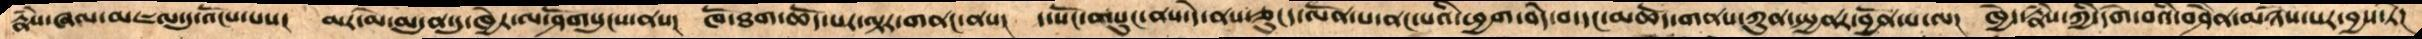རྣཾས་ཞལ་མཇལ་དུ་འོངས་པས།   མར་མེ་མདུན་དུ་ཁྱེར་ལ་ཤོགསུངས་ནས།   ཁོ་ཐག་ཆོད་པར་ལྟར་གནང་ནས།  ད་སོང་གསུངས་ནས་དེ་ནས་ཅུངཟད་ལོན་པ་ནང་པའི་ཕྱག་བདེ་བ་དང་མཆོད་གནས་ཀུན་སྤྱནར་བྱོན་པ་ལ།   ཁྱེད་རྣཾས་ཀྱི་དགེ་བའི་བཤཻན་མཉེས་པར་བྱས་ཏེ།
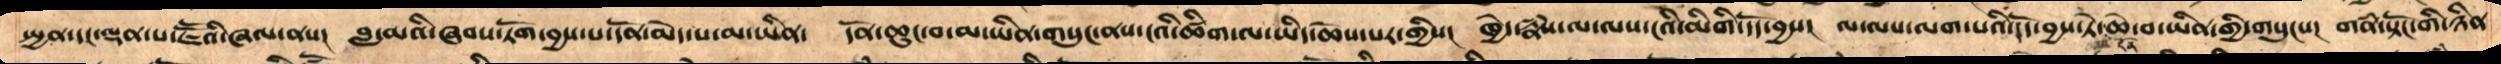སྤྱན་དང་ལྡན་པ་ཇཽའི་ཞལ་ནས། བླ་མའི་ཞབས་ཏོག་བྱས་པ་དོན་མེད་པ་མ་ཡིན། དོན་ཆུང་བ་མ་ཡིན་གསུང་ནས་ངའི་ཚིག་ལ་ཡིད་ཆེས་པར་གྱིས། ཁྱེད་རྣཾས་ལ་ལས་ངའི་མིགི་དོད་བྱས། ལ་ལས་ལག་པའི་དོད་བྱས་ཏེ་ཆེ་བ་ཡིན་གྱི་གསུངས། གནཾ་སྟོང་གི་ཉིན་
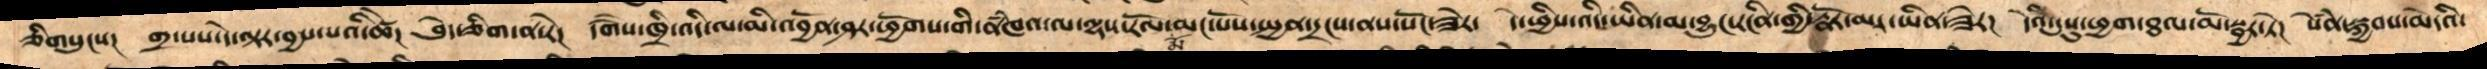ཅིགསུངས།   གྲ་པས་དེ་ལྟར་བྱས་པའི་ཚེ།   བེུད་ཅིག་ན་རེ།   དགཻས་ཁྲི་འདི་ལ་མི་འབྱོན་ཤར་ཕྱོགས་གི་ནཾཁའ་ལ་ལྷས་རོལ་མོ་མང་པོས་སྤྱན་དྲངས་ནས་སོང་ཟེར་  དེ་ཕྱིས་འདི་ཡིན་མ་བྱུང་རངིན་གྱི་རྣོར་མ་ཡིན་ཟེར།  དེའི་དུསུ་ཕྱག་ཐལ་མོ་སྦྱར་ཏེ།  སེཾན་སྐྱབས་མེདའི་
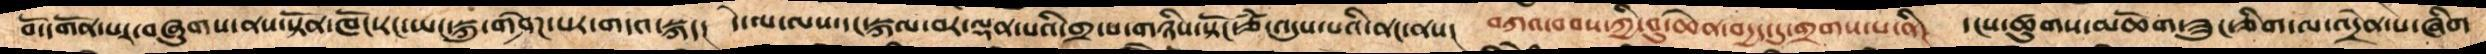བོ་དགོན་པར་བཞུགས་ནས་སྟོན་ཁོང་རང་ཡང་སྐུ་གཤེཌ་པར་གདའ་སྐད།    དེ་ལ་ལས་དང་སྐལ་བར་ལྡན་པའི་གྲ་པ་གཉིས་སྟོང་ཙཾ་འདུས་པའི་ནང་ནས།   བཀའ་བབས་ཀྱི་བུ་ཆེན་བདྱད་དུ་གྲགས་པ་ནི།   དངས་ཚུགས་མཆོག་ཟུང་ཅིག་ལ་འདྲེན་པ་ཞིག
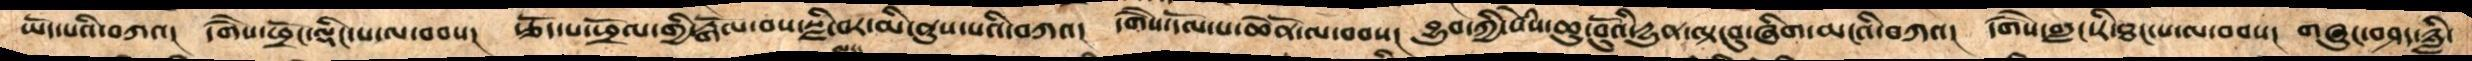ཡོད་པའི་བཀའ།   དགཻས་ཕྲོང་ལྡིང་པ་ལ་བབས།   རྩོད་པ་ཕྲོལ་གྱི་རྒོལ་བས་སྫི་བར་མི་ནུས་པའི་བཀའ།   དགཻས་ལོ་པ་ཆེནོ་ལ་བབས།  བྱུབ་ཀྱི་སེཾས་ཆུ་བོུའི་དྱུན་ལྟ་བུ་ཞིག་མངའི་བཀའ།  དགཻས་གླང་རི་ཐང་པ་ལ་བབས།  གཞུང་བཤད་ཉླི་
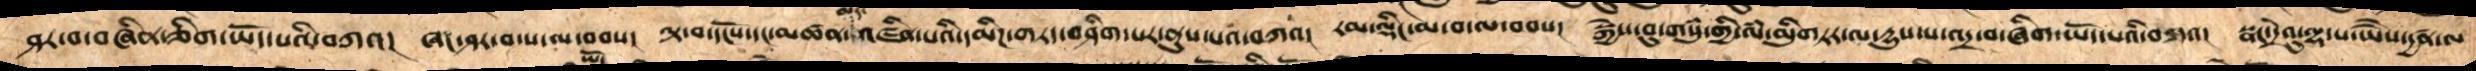ཤར་བ་བཞིན་ཅིག་ཡོད་པའི་བཀའ།  ཞང་ཤར་བ་པ་ལ་བབས། ལྟ་བ་དངོས་དང་མཚན་མར་འཛིན་པའིདམིཌ་གཏད་བཤིག་པར་ནུས་པའི་བཀའ། རམ་ལྡིང་མ་བ་ལ་བབས། སྐྱེས་བུ་གསུཾ་གྱི་ལཾ་མིུག་ཏར་ལ་དྱུས་པ་འདྲ་བ་ཞིག་ཡོད་པའི་བཀའ།  སྣང་དྲེའུ་ལྷ་པ་ཡཻས་དྱཚན་ལ
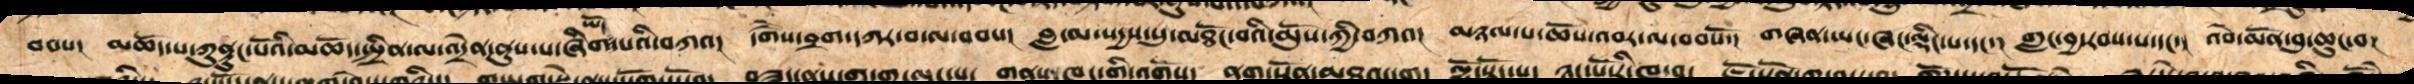བབས། མཆོད་པ་ཀུནུང་པོའི་མཆོད་སྤྲིན་ལ་འདྲེན་ནུས་པ་ཞིག་ཡོད་པའི་བཀའ།  དགཻས་བྲག་དཀར་བ་ལ་བབས། བླ་མ་སདྱས་སུ་མཐོང་བའི་མོུས་ཀྱི་བཀའ།  མཉལ་པ་ཆོས་འབར་ལ་བབསོ་། གཞན་ཡང་ཞང་ལྡིང་པ་དང་། གླང་བྱ་རབས་པ་དང་། འབེ་མོན་བུ་ཆུང་བ།
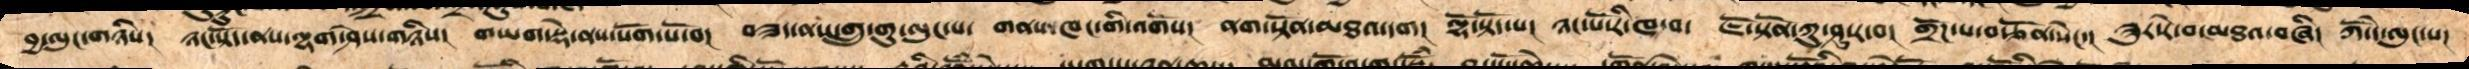བྱ་ལུང་གཉིས།  ཉང་སྟོད་ནས་ལྷག་ཤེས་གཉིས།  གཡག་སྡེ་ནས་སོག་པོ་བ།  བཟད་ནས་གྲུ་གུ་ལུང་པ།  གནས་ཁང་གི་འགོས།  ནག་སྟོན་མཐའ་དག།  ལྷ་སྟོད་པ།  ཉང་པོ་རི་ཁ་བ།  ཇོ་སྟོན་ཀུ་ཤུ་ར་བ།  གྲོཌ་པ་བརྩོན་སེང་།  ཟུར་རེ་བ་མཐའ་བཞི།  ཀོ་དེ་ལུང་པ།
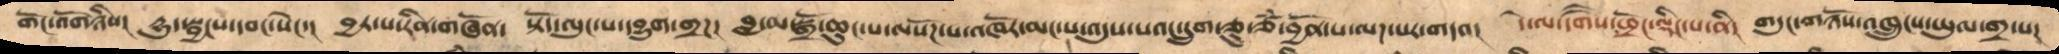གོང་འོགཉིས།  དྱུད་སྦྱངས་དབང་སེང་།  བྱར་པ་རིན་བཞོན།  སྟོད་ལུང་པ་དབྱུག་གྲཌ།   བླ་མ་སྒྲོ་ཆུང་པ་ལསོཌ་པ་འཁོར་མང་པ་འདུས་པའང་དྲུག་ཅུ་ཙཾ་བྱོན་པ་ལཌ་པར་གདའ།   དེ་ལ་དགཻས་ཕྲོང་ལྡིང་པ་ནི།  གདུང་གཉོས་འཁྲུངས་ཡུལ་གྲ་པ་
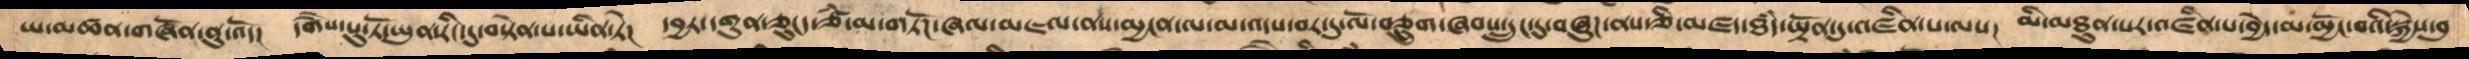ཡ་མཚན་གཞོན་ནུ་འོད།   དགཻས་པུ་ཏོ་ཡུན་རིང་དུ་བསྟེན་པ་ཡིན་ཏེ།   དབྱར་དགུན་ཅུངད་ཙཾ་མ་གཏོཌ་ཞལ་མཇལ་ནས་མྱངན་ལ་མ་འདས་བར་དུ་ལོ་བཅྲུག་ཞབས་དྲུང་དུ་བཞུཌ་ནས་ཅི་མཛད་ཐཾད་ཡྟོན་དུ་འཛིན་པ་ལས།   མི་མཐུན་པར་འཛིན་པ་བྱེད་མ་མྱོང་བའི་སྐྱེས་བུ
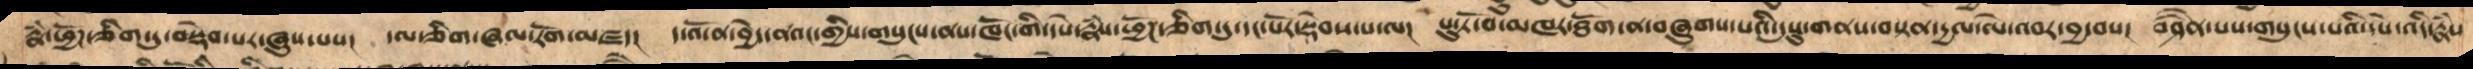རྣཾ་ཕྱོཌ་ཅིག་དུ་བསྡེབ་པར་ཞུས་པས།   དལ་ཅིག་ཞལ་རོག་མཛད།   ད་འོ་ན་བྱེད་ནའང་གྱིས་གསུངས་ནས་ཁོང་གི་དཔེ་རྣཾས་ཕྱོཌ་ཅིག་དུ་དང་པོར་སྡེབས་པ་ལ།  པུ་ཏོ་བ་མཁར་ཐོག་ན་བཞུགས་པའི་དུསུ་གནས་བསྟན་དྱལ་མེ་འབར་བྱ་བས།   བཤཻན་པས་གསུངས་པའི་དཔེ་འདི་རྣཾས
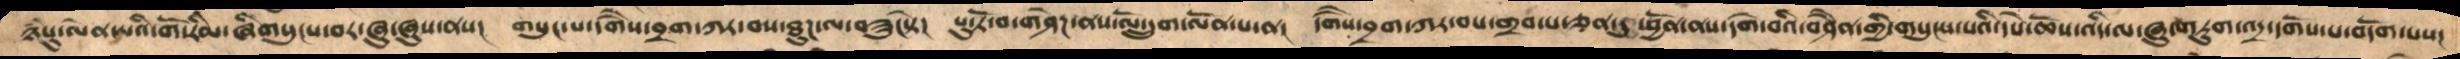ཉཾསུ་ལེན་པའི་གོ་རིམ་ཞིགསུངས་བར་ཞུ་ཞུས་ནས།   གསུང་པ་དགཻས་བྲག་ཀར་བས་ཐུཌ་ལ་བཟུངསྟེ།   པུ་ཏོ་བ་གཤེཌ་ནས་ལོ་དྲུག་ལོན་པ་ན།   དགཻས་བྲག་ཀར་བས་གྲབ་པ་ཅན་དུ་བྱོན་ནས་དགེ་བའི་བཤཻན་གྱི་གསུངས་པའི་དཔེ་ཆོས་འདི་ལ་ཞུ་གཏུག་འདྲ་དགོས་པ་བདོག་པས་
